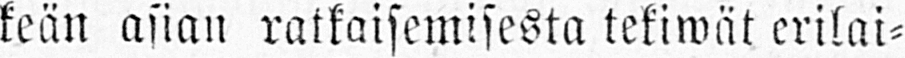keän asian ratkaisemisesta tekiwät erilai-
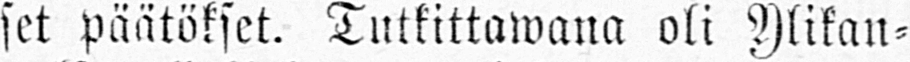set päätökset. Tutkittawana oli Ylikan-
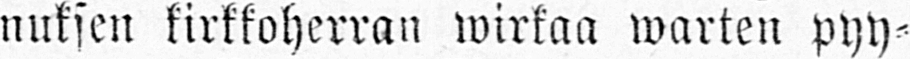nuksen kirkkoherran wirkaa warten pyy-
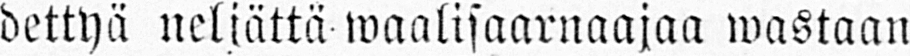dettyä neljättä waalisaarnaajaa wastaan
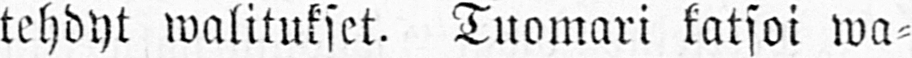tehdyt walitukset. Tuomari katsoi wa-
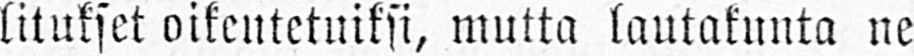litukset oikeutetuiksi, mutta lautakunta ne
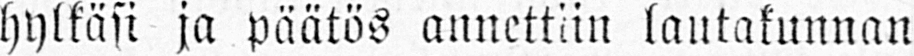hylkäsi ja päätös annettiin lautakunnan
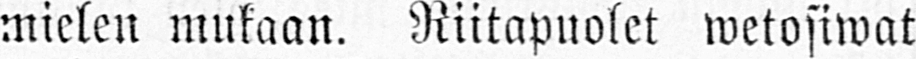mielen mukaan. Riitapuolet wetosiwat
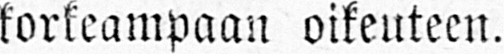korkeampaan oikeuteen.
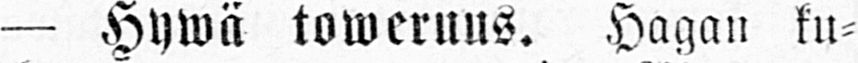— Hywä toweruus. Hagan ku-
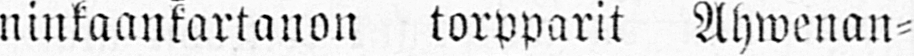ninkaankartanon torpparit Ahwenan-
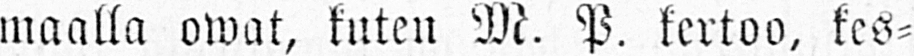maalla owat, kuten M. P. kertoo, kes-
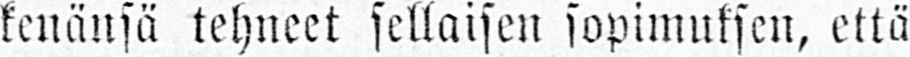kenänsä tehneet sellaisen sopimuksen, että
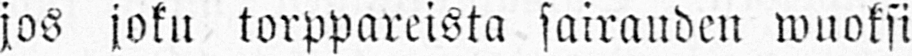jos joku torppareista sairauden wuoksi
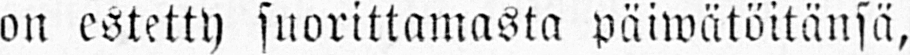on estetty suorittamasta päiwätöitänsä,
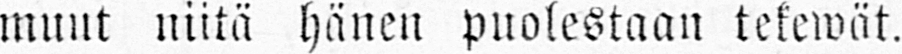muut niitä hänen puolestaan tekewät.
